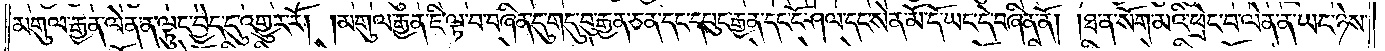མགུལ་རྒྱན་ལེན་ན་ལྟུང་བྱེད་དུ་འགྱུར་རོ། །མགུལ་རྒྱན་ཇི་ལྟ་བ་བཞིན་དུ་གདུ་བུ་རྒྱན་ཅན་དང་དཔུང་རྒྱན་དང་ངོ་ཤལ་དང་སེན་མོ་དོ་ཡང་དེ་བཞིན་ནོ། །ཐ་ན་སོག་མའི་ཕྲེང་བ་ལེན་ན་ཡང་ཉེས་
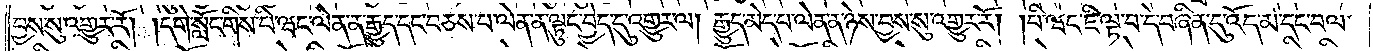བྱས་སུ་འགྱུར་རོ། །དགེ་སློང་གིས་པི་ཝང་ལེན་ན་རྒྱུད་དང་བཅས་པ་ལེན་ན་ལྟུང་བྱེད་དུ་འགྱུར་ལ། རྒྱུད་མེད་པ་ལེན་ན་ཉེས་བྱས་སུ་འགྱུར་རོ། །པི་ཝང་ཇི་ལྟ་བ་དེ་བཞིན་དུ་འོད་མ་དང་བལ་
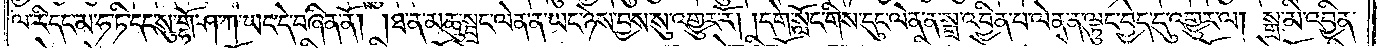ལ་རི་དང་མ་ཧ་ཏི་དང་སུ་གྷོ་ཤ་ཀ་ཡང་དེ་བཞིན་ནོ། །ཐ་ན་མཆུ་སྦྲང་ལེན་ན་ཡང་ཉེས་བྱས་སུ་འགྱུར་རོ། །དགེ་སློང་གིས་དུང་ལེན་ན་སྒྲ་འབྱིན་པ་ལེན་ན་ལྟུང་བྱེད་དུ་འགྱུར་ལ། སྒྲ་མི་འབྱིན་
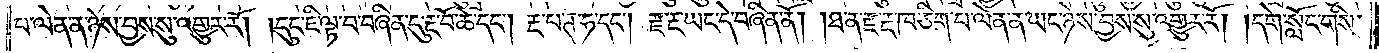པ་ལེན་ན་ཉེས་བྱས་སུ་འགྱུར་རོ། །དུང་ཇི་ལྟ་བ་བཞིན་དུ་རྔ་བོ་ཆེ་དང༌། རྔ་པ་ཊ་ཧ་དང༌། རྫ་རྔ་ཡང་དེ་བཞིན་ནོ། །ཐ་ན་རྫ་རྔ་ཁ་ཅིག་པ་ལེན་ན་ཡང་ཉེས་བྱས་སུ་འགྱུར་རོ། །དགེ་སློང་གིས་
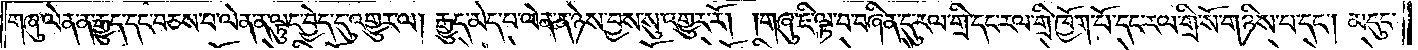གཞུ་ལེན་ན་རྒྱུད་དང་བཅས་པ་ལེན་ན་ལྟུང་བྱེད་དུ་འགྱུར་ལ། རྒྱུད་མེད་པ་ལེན་ན་ཉེས་བྱས་སུ་འགྱུར་རོ། །གཞུ་ཇི་ལྟ་བ་བཞིན་དུ་རལ་གྲི་དང་རལ་གྲི་ཁྱོག་པོ་དང་རལ་གྲི་སོ་གཉིས་པ་དང༌། མདུང་
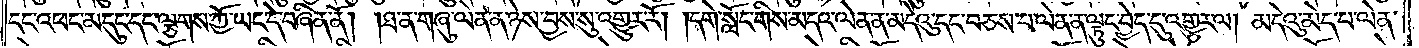དང་འཕང་མདུང་དང་ལྕགས་ཀྱོ་ཡང་དེ་བཞིན་ནོ། །ཐ་ན་གཞུ་ལེན་ན་ཉེས་བྱས་སུ་འགྱུར་རོ། །དགེ་སློང་གིས་མདའ་ལེན་ན་མདེའུ་དང་བཅས་པ་ལེན་ན་ལྟུང་བྱེད་དུ་འགྱུར་ལ། མདེའུ་མེད་པ་ལེན་
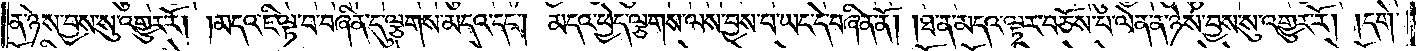ན་ཉེས་བྱས་སུ་འགྱུར་རོ། །མདའ་ཇི་ལྟ་བ་བཞིན་དུ་ལྕགས་མདའ་དང༌། མདའ་ཕྱེད་ལྕགས་ལས་བྱས་པ་ཡང་དེ་བཞིན་ནོ། །ཐ་ན་མདའ་ལྟར་བཅོས་པ་ལེན་ན་ཉེས་བྱས་སུ་འགྱུར་རོ། །དགེ་
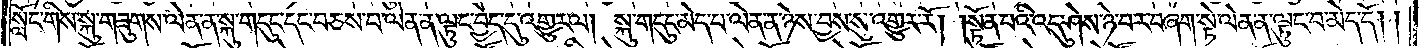སློང་གིས་སྐུ་གཟུགས་ལེན་ན་སྐུ་གདུང་དང་བཅས་པ་ལེན་ན་ལྟུང་བྱེད་དུ་འགྱུར་ལ། སྐུ་གདུང་མེད་པ་ལེན་ན་ཉེས་བྱས་སུ་འགྱུར་རོ། །སྟོན་པའི་འདུ་ཤེས་ཉེ་བར་བཞག་སྟེ་ལེན་ན་ལྟུང་བ་མེད་དོ། །
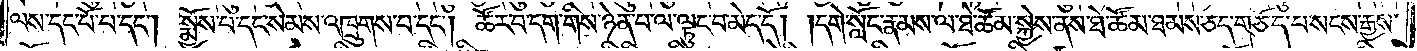ལས་དང་པོ་པ་དང༌། སྨྱོས་པ་དང་སེམས་འཁྲུགས་པ་དང༌། ཚོར་བ་དག་གིས་ཉེན་པ་ལ་ལྟུང་བ་མེད་དོ། །དགེ་སློང་རྣམས་ལ་ཐེ་ཚོམ་སྐྱེས་ནས་ཐེ་ཚོམ་ཐམས་ཅད་གཅོད་པ་སངས་རྒྱས་
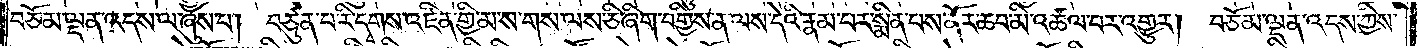བཅོམ་ལྡན་འདས་ལ་ཞུས་པ། བཙུན་པ་རི་དྭགས་འཛིན་གྱི་མ་ས་གས་ལས་ཅི་ཞིག་བགྱིས་ན་ལས་དེའི་རྣམ་པར་སྨིན་པས་ནོར་ཆབ་མི་འཚལ་བར་འགྱུར། བཅོམ་ལྡན་འདས་ཀྱིས་
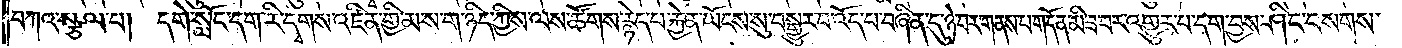བཀའ་སྩལ་པ། དགེ་སློང་དག་རི་དྭགས་འཛིན་གྱི་མ་ས་ག་ཉིད་ཀྱིས་ལས་ཚོགས་རྙེད་པ་རྐྱེན་ཡོངས་སུ་བསྒྱུར་བ་འོད་པ་བཞིན་དུ་ཉེ་བར་གནས་པ་གདོན་མི་ཟ་བར་འགྱུར་པ་དག་བྱས་ཤིང་བསགས་
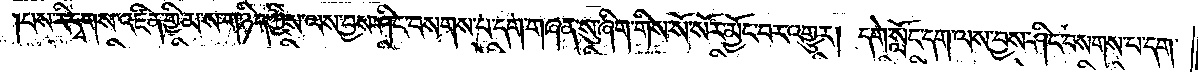པས་རི་དྭགས་འཛིན་གྱི་མ་ས་ག་ཉིད་ཀྱིས་ལས་བྱས་ཤིང་བསགས་པ་དག་གཞན་སུ་ཞིག་གིས་སོ་སོར་མྱོང་བར་འགྱུར། དགེ་སློང་དག་ལས་བྱས་ཤིང་བསགས་པ་དག་
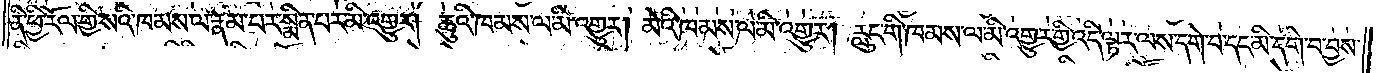ནི་ཕྱི་རོལ་གྱི་སའི་ཁམས་ལ་རྣམ་པར་སྨིན་པར་མི་འགྱུར། ཆུའི་ཁམས་ལ་མི་འགྱུར། མེའི་ཁམས་ལ་མི་འགྱུར། རླུང་གི་ཁམས་ལ་མི་འགྱུར་གྱི་འདི་ལྟར་ལས་དགེ་བ་དང་མི་དགེ་བ་བྱས་
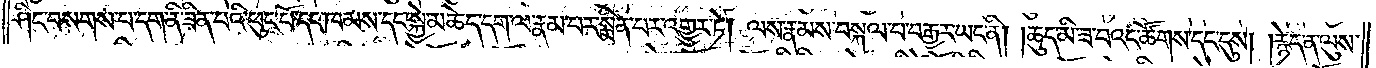ཤིང་བསགས་པ་དག་ནི་ཟིན་པའི་ཕུང་པོ་དང་ཁམས་དང་སྐྱེ་མཆེད་དག་ལ་རྣམ་པར་སྨིན་པར་འགྱུར་ཏེ། ལས་རྣམས་བསྐལ་པ་བརྒྱར་ཡང་ནི། །ཆུད་མི་ཟ་བའང་ཚོགས་དང་དུས། །རྙེད་ན་ལུས་
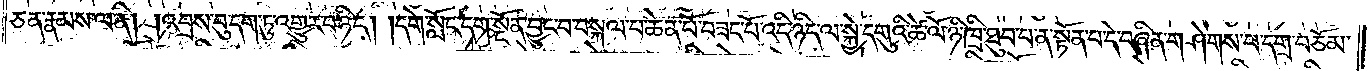ཅན་རྣམས་ལ་ནི། །འབྲས་བུ་དག་ཏུ་འགྱུར་བ་ཉིད། །དགེ་སློང་དག་སྔོན་བྱུང་བ་བསྐལ་པ་ཆེན་པོ་བཟང་པོ་འདི་ཉིད་ལ་སྐྱེ་དགུའི་ཚེ་ལོ་ཉི་ཁྲི་ཐུབ་པ་ན་སྟོན་པ་དེ་བཞིན་གཤེགས་པ་དགྲ་བཅོམ་
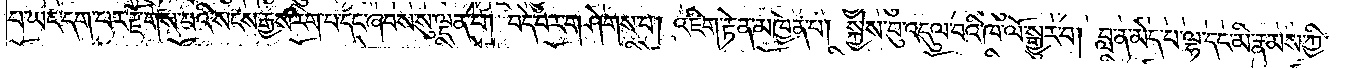པ་ཡང་དག་པར་རྫོགས་པའི་སངས་རྒྱས་རིག་པ་དང་ཞབས་སུ་ལྡན་པ། བདེ་བར་གཤེགས་པ། འཇིག་རྟེན་མཁྱེན་པ། སྐྱེས་བུ་འདུལ་བའི་ཁ་ལོ་སྒྱུར་བ། བླ་ན་མེད་པ་ལྷ་དང་མི་རྣམས་ཀྱི་
